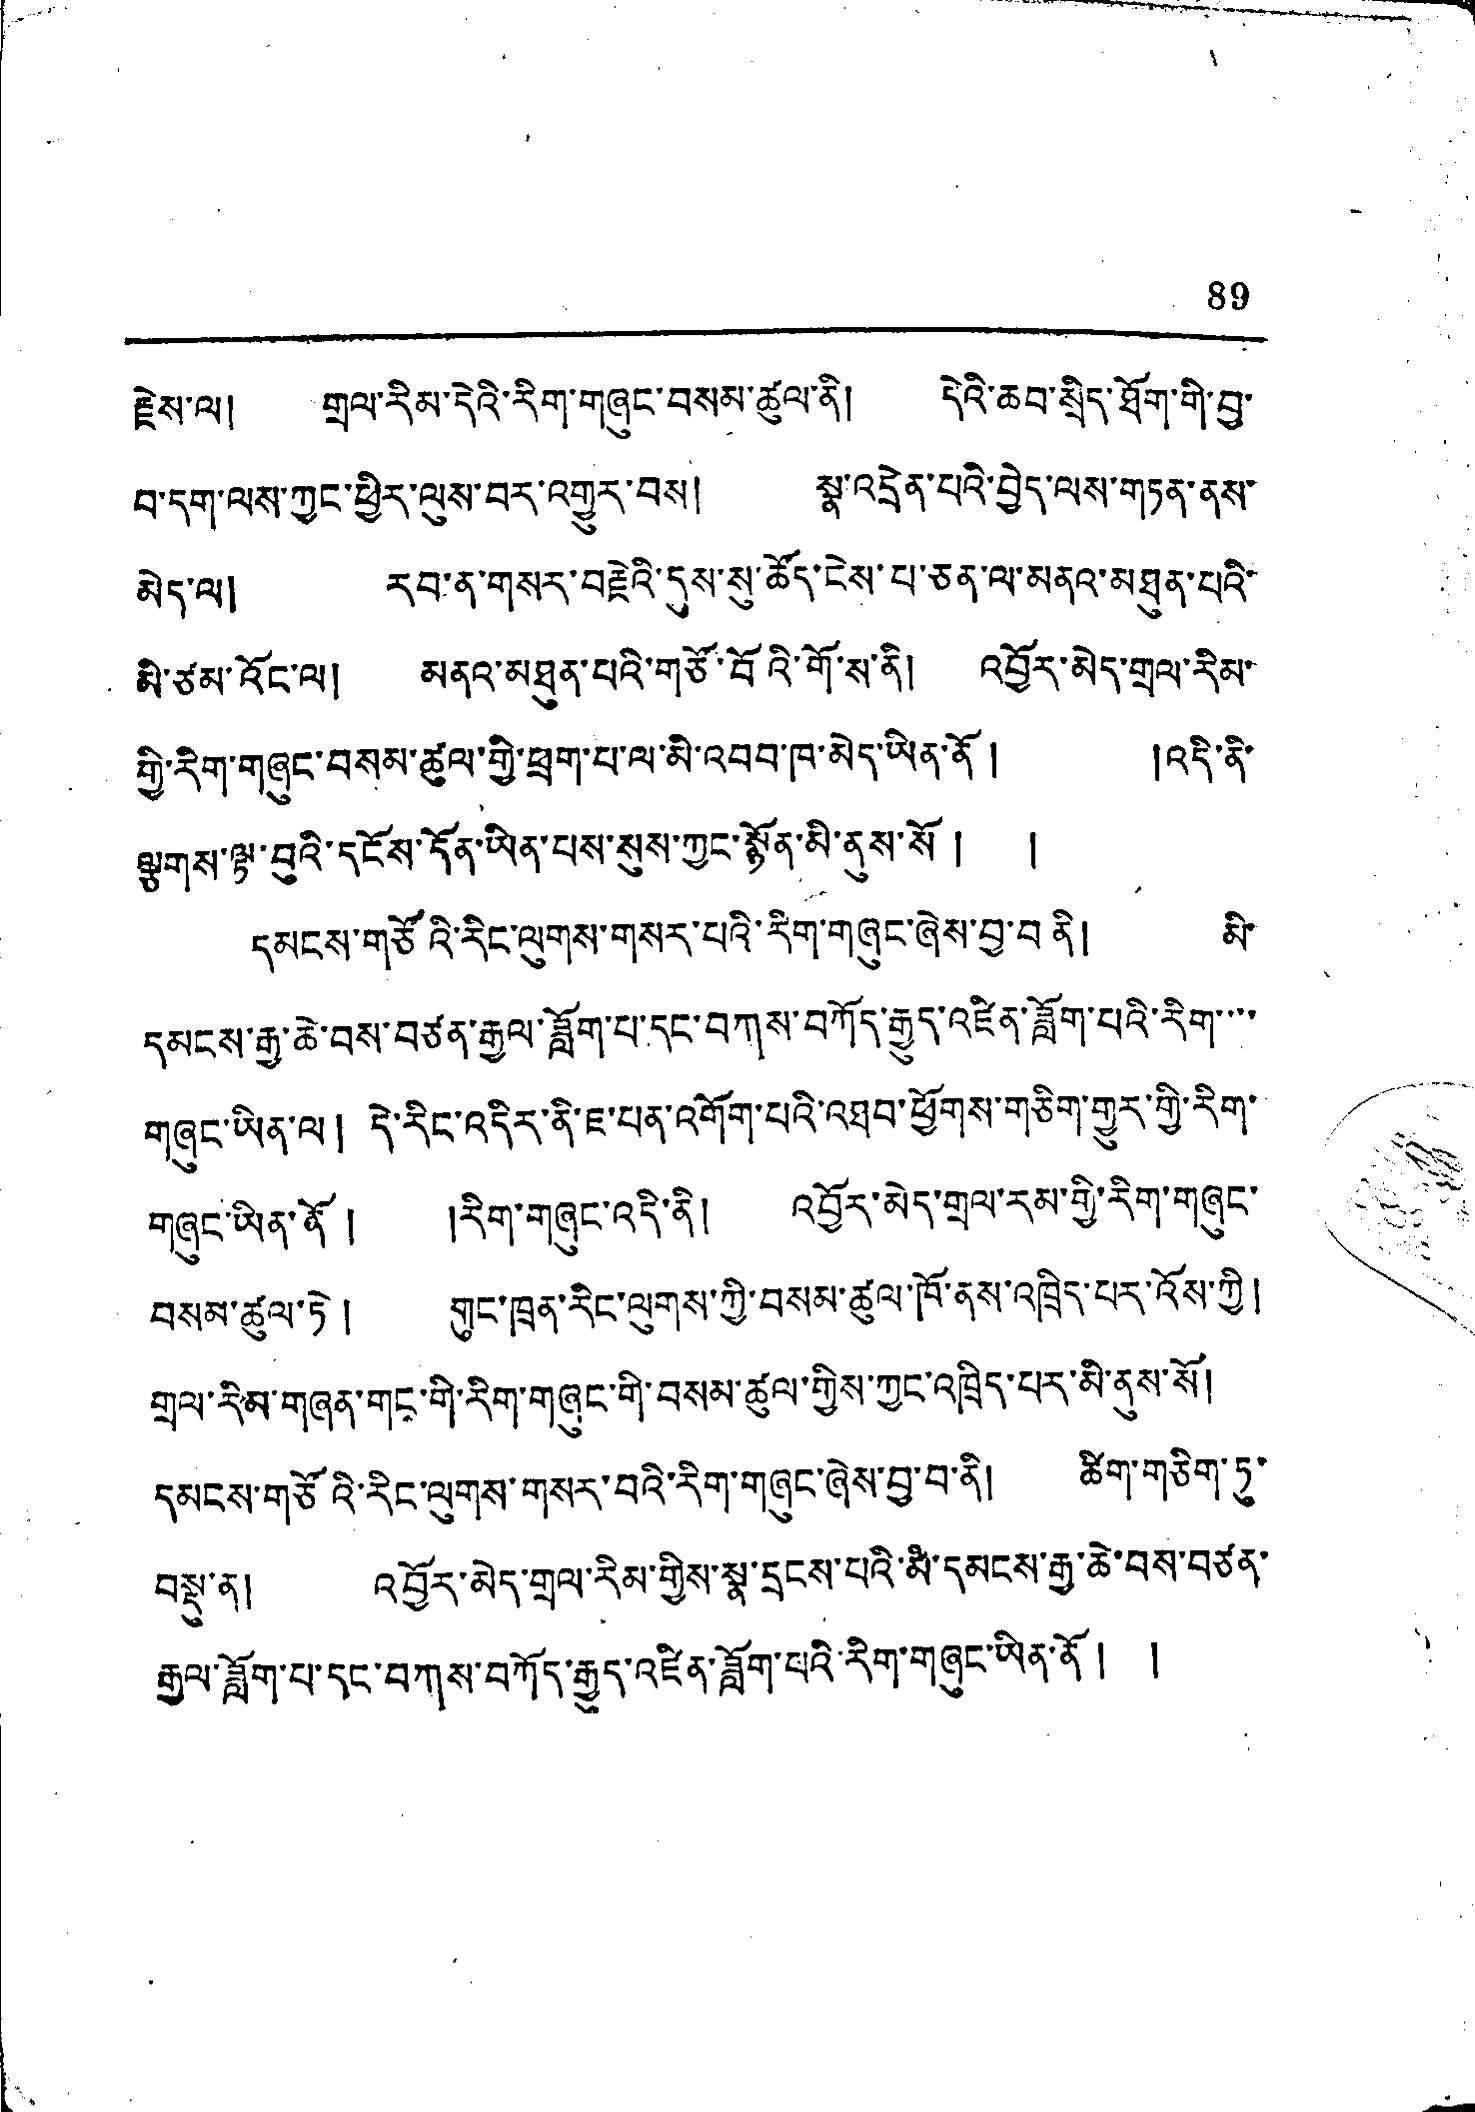89
རྗེས་ལ། གྲལ་རིམ་དེའི་རིག་གཞུང་བསམ་ཚུལ་ནི། དེའི་ཆབ་སྲིད་ཐོག་གི་བྱ་
བ་དག་ལས་ཀྱང་ཕྱིར་ལུས་བར་འགྱུར་བས། སྣ་འདྲེན་པའི་བྱེད་ལས་གཏན་ནས་
མེད་ལ། རབ་ན་གསར་བརྗེའི་དུས་སུ་ཚོད་ངེས་པ་ཅན་ལ་མནའ་མཐུན་པའི་
མི་ཙམ་འོང་ལ། མནའ་མཐུན་པའི་གཙོ་བོའི་གོ་ས་ནི། འབྱོར་མེད་གྲལ་རིམ་
གྱི་རིག་གཞུང་བསམ་ཚུལ་གྱི་ཕྲག་པ་ལ་མི་འབབ་ཁ་མེད་ཡིན་ནོ ། །འདི་ནི་
ལྕགས་ལྟ་བུའི་དངོས་དོན་ཡིན་པས་སུས་ཀྱང་སྙོན་མི་ནུས་སོ ། །
དམངས་གཙོའི་རིང་ལུགས་གསར་པའི་རིག་གཞུང་ཞེས་བྱ་བནི། མི་
དམངས་རྒྱ་ཆེ་བས་བཙན་རྒྱལ་ཟློག་པ་དང་བཀས་བཀོད་རྒྱུད་འཛིན་ཟློག་པའི་རིག་་་་
གཞུང་ཡིན་ལ། དེ་རིང་འདིར་ནི་ཇ་པན་འགོག་པའི་འཐབ་ཕྱོགས་གཅིག་གྱུར་གྱི་རིག་
གཞུང་ཡིན་ནོ། །རིག་གཞུང་འདི་ནི། འབྱོར་མེད་གྲལ་རམ་གྱི་རིག་གཞུང་
བསམ་ཚུལ་ཏེ། གུང་ཁྲན་རིང་ལུགས་ཀྱི་བསམ་ཚུལ་ཁོ་ནས་འཁྲིད་པར་འོས་ཀྱི།
གྲལ་རིམ་གཞན་གང་གི་རིག་གཞུང་གི་བསམ་ཚུལ་གྱིས་ཀྱང་འཁྲིད་པར་མི་ནུས་སོ།
དམངས་གཙོའི་རིང་ལུགས་གསར་བའི་རིག་གཞུང་ཞེས་བྱ་བ་ནི། ཚིག་གཅིག་ཏུ་
བསྟུ་ན། འབྱོར་མེད་གྲལ་རིམ་གྱིས་སྣ་དྲངས་པའི་མི་དམངས་རྒྱ་ཆེ་བས་བཙན་
རྒྱལ་ཟློག་པ་དང་བཀས་བཀོད་རྒྱུད་འཛིན་ཟློག་པའི་རིག་གཞུང་ཡིན་ནོ། །
